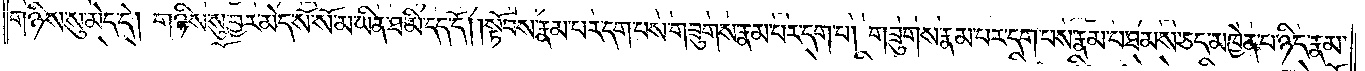གཉིས་སུ་མེད་དེ། གཉིས་སུ་བྱར་མེད་སོ་སོ་མ་ཡིན་ཐ་མི་དད་དོ། །སྟོབས་རྣམ་པར་དག་པས་གཟུགས་རྣམ་པར་དག་པ། གཟུགས་རྣམ་པར་དག་པས་རྣམ་པ་ཐམས་ཅད་མཁྱེན་པ་ཉིད་རྣམ་
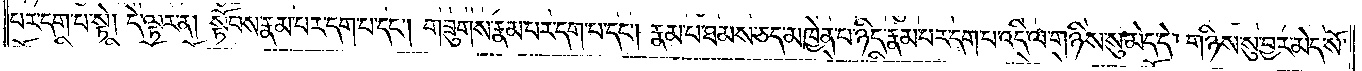པར་དག་པ་སྟེ། དེ་ལྟར་ན། སྟོབས་རྣམ་པར་དག་པ་དང༌། གཟུགས་རྣམ་པར་དག་པ་དང༌། རྣམ་པ་ཐམས་ཅད་མཁྱེན་པ་ཉིད་རྣམ་པར་དག་པ་འདི་ལ་གཉིས་སུ་མེད་དེ། གཉིས་སུ་བྱར་མེད་སོ་
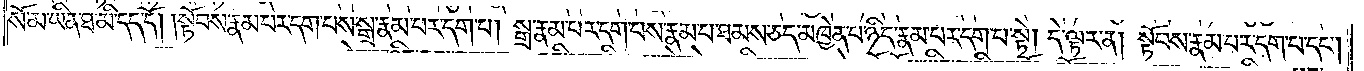སོ་མ་ཡིན་ཐ་མི་དད་དོ། །སྟོབས་རྣམ་པར་དག་པས་སྒྲ་རྣམ་པར་དག་པ། སྒྲ་རྣམ་པར་དག་པས་རྣམ་པ་ཐམས་ཅད་མཁྱེན་པ་ཉིད་རྣམ་པར་དག་པ་སྟེ། དེ་ལྟར་ན། སྟོབས་རྣམ་པར་དག་པ་དང༌།
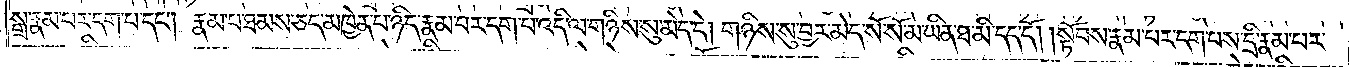སྒྲ་རྣམ་པར་དག་པ་དང༌། རྣམ་པ་ཐམས་ཅད་མཁྱེན་པ་ཉིད་རྣམ་པར་དག་པ་འདི་ལ་གཉིས་སུ་མེད་དེ། གཉིས་སུ་བྱར་མེད་སོ་སོ་མ་ཡིན་ཐ་མི་དད་དོ། །སྟོབས་རྣམ་པར་དག་པས་དྲི་རྣམ་པར་
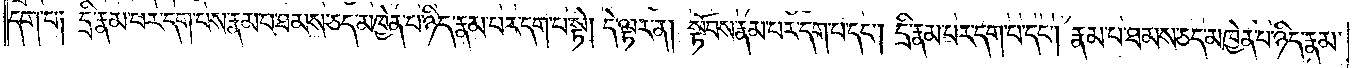དག་པ༑ དྲི་རྣམ་པར་དག་པས་རྣམ་པ་ཐམས་ཅད་མཁྱེན་པ་ཉིད་རྣམ་པར་དག་པ་པ་སྟེ། དེ་ལྟར་ན། སྟོབས་རྣམ་པར་དག་པ་དང༌། དྲི་རྣམ་པར་དག་པ་དང༌། རྣམ་པ་ཐམས་ཅད་མཁྱེན་པ་ཉིད་རྣམ་
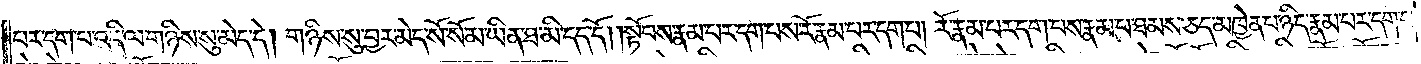པར་དག་པ་འདི་ལ་གཉིས་སུ་མེད་དེ། གཉིས་སུ་བྱར་མེད་སོ་སོ་མ་ཡིན་ཐ་མི་དད་དོ། །སྟོབས་རྣམ་པར་དག་པས་རོ་རྣམ་པར་དག་པ། རོ་རྣམ་པར་དག་པས་རྣམ་པ་ཐམས་ཅད་མཁྱེན་པ་ཉིད་རྣམ་པར་དག་པ་
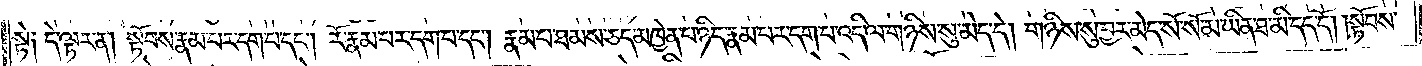སྟེ༑ དེ་ལྟར་ན། སྟོབས་རྣམ་པར་དག་པ་དང༌། རོ་རྣམ་པར་དག་པ་དང༌། རྣམ་པ་ཐམས་ཅད་མཁྱེན་པ་ཉིད་རྣམ་པར་དག་པ་འདི་ལ་གཉིས་སུ་མེད་དེ། གཉིས་སུ་བྱར་མེད་སོ་སོ་མ་ཡིན་ཐ་མི་དད་དོ། །སྟོབས་
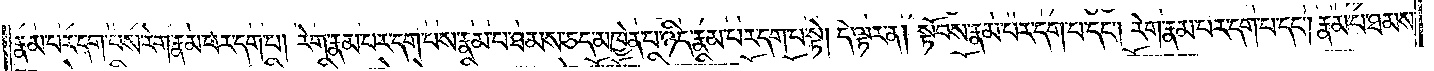རྣམ་པར་དག་པས་རེག་རྣམ་པར་དག་པ། རེག་རྣམ་པར་དག་པས་རྣམ་པ་ཐམས་ཅད་མཁྱེན་པ་ཉིད་རྣམ་པར་དག་པ་སྟེ། དེ་ལྟར་ན། སྟོབས་རྣམ་པར་དག་པ་དང༌། རེག་རྣམ་པར་དག་པ་དང༌། རྣམ་པ་ཐམས་
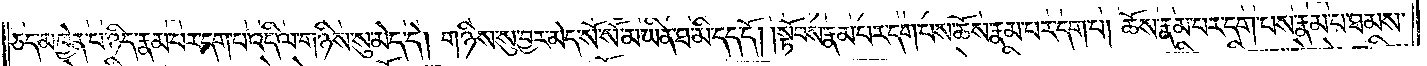ཅད་མཁྱེན་པ་ཉིད་རྣམ་པར་དག་པ་འདི་ལ་གཉིས་སུ་མེད་དེ། གཉིས་སུ་བྱར་མེད་སོ་སོ་མ་ཡིན་ཐ་མི་དད་དོ། །སྟོབས་རྣམ་པར་དག་པས་ཆོས་རྣམ་པར་དག་པ། ཆོས་རྣམ་པར་དག་པས་རྣམ་པ་ཐམས་
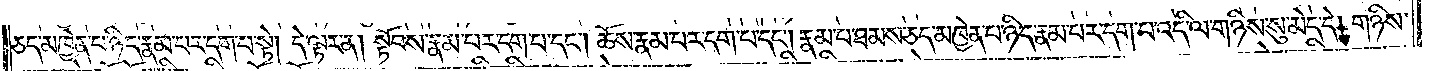ཅད་མཁྱེན་པ་ཉིད་རྣམ་པར་དག་པ་སྟེ། དེ་ལྟར་ན། སྟོབས་རྣམ་པར་དག་པ་དང༌། ཆོས་རྣམ་པར་དག་པ་དང༌། རྣམ་པ་ཐམས་ཅད་མཁྱེན་པ་ཉིད་རྣམ་པར་དག་པ་འདི་ལ་གཉིས་སུ་མེད་དེ། གཉིས་
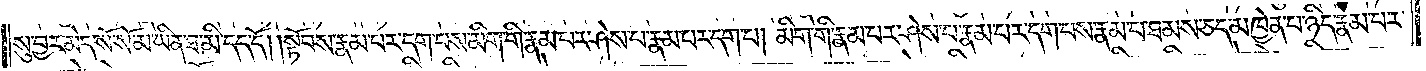སུ་བྱར་མེད་སོ་སོ་མ་ཡིན་ཐ་མི་དད་དོ། །སྟོབས་རྣམ་པར་དག་པས་མིག་གི་རྣམ་པར་ཤེས་པ་རྣམ་པར་དག་པ། མིག་གི་རྣམ་པར་ཤེས་པ་རྣམ་པར་དག་པས་རྣམ་པ་ཐམས་ཅད་མཁྱེན་པ་ཉིད་རྣམ་པར་
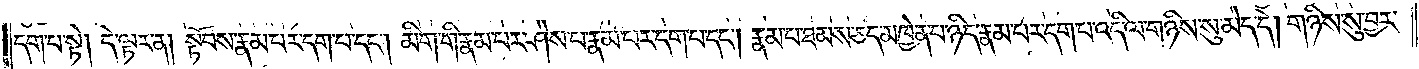དག་པ་སྟེ། དེ་ལྟར་ན། སྟོབས་རྣམ་པར་དག་པ་དང༌། མིག་གི་རྣམ་པར་ཤེས་པ་རྣམ་པར་དག་པ་དང༌། རྣམ་པ་ཐམས་ཅད་མཁྱེན་པ་ཉིད་རྣམ་པར་དག་པ་འདི་ལ་གཉིས་སུ་མེད་དེ། གཉིས་སུ་བྱར་
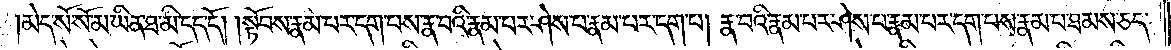མེད་སོ་སོ་མ་ཡིན་ཐ་མི་དད་དོ། །སྟོབས་རྣམ་པར་དག་པས་རྣ་བའི་རྣམ་པར་ཤེས་པ་རྣམ་པར་དག་པ། རྣ་བའི་རྣམ་པར་ཤེས་པ་རྣམ་པར་དག་པས་རྣམ་པ་ཐམས་ཅད་
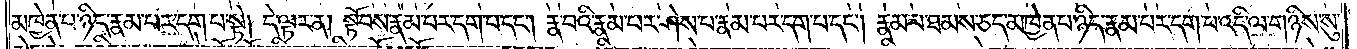མཁྱེན་པ་ཉིད་རྣམ་པར་དག་པ་སྟེ། དེ་ལྟར་ན། སྟོབས་རྣམ་པར་དག་པ་དང༌། རྣ་བའི་རྣམ་པར་ཤེས་པ་རྣམ་པར་དག་པ་དང༌། རྣམ་པ་ཐམས་ཅད་མཁྱེན་པ་ཉིད་རྣམ་པར་དག་པ་འདི་ལ་གཉིས་སུ་
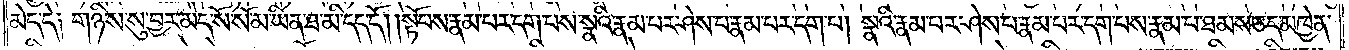མེད་དེ༑ གཉིས་སུ་བྱར་མེད་སོ་སོ་མ་ཡིན་ཐ་མི་དད་དོ། །སྟོབས་རྣམ་པར་དག་པས་སྣའི་རྣམ་པར་ཤེས་པ་རྣམ་པར་དག་པ། སྣའི་རྣམ་པར་ཤེས་པ་རྣམ་པར་དག་པས་རྣམ་པ་ཐམས་ཅད་མཁྱེན་
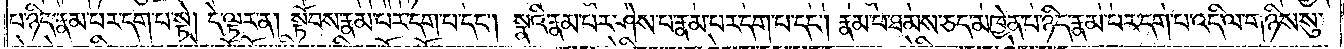པ་ཉིད་རྣམ་པར་དག་པ་སྟེ། དེ་ལྟར་ན། སྟོབས་རྣམ་པར་དག་པ་དང༌། སྣའི་རྣམ་པར་ཤེས་པ་རྣམ་པར་དག་པ་དང༌། རྣམ་པ་ཐམས་ཅད་མཁྱེན་པ་ཉིད་རྣམ་པར་དག་པ་འདི་ལ་གཉིས་སུ་
